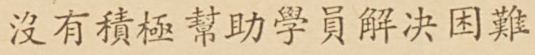沒有積極幫助學員解決困難
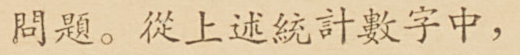問題。從上述統計數字中，
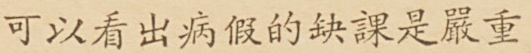可以看出病假的缺課是嚴重
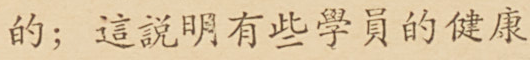的；這說明有些學員的健康
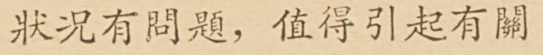狀況有問題，值得引起有關
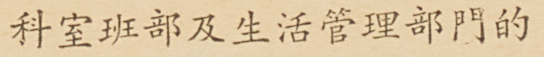科室班部及生活管理部門的
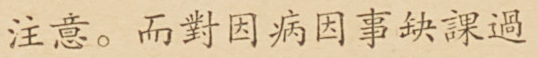注意。而對因病因事缺課過
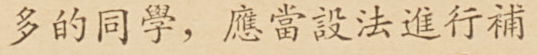多的同學，應當設法進行補
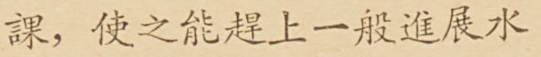課，使之能趕上一般進展水
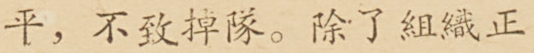平，不致掉隊。除了組織正
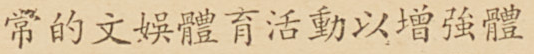常的文娛體育活動以增強體
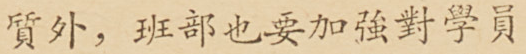質外，班部也要加強對學員
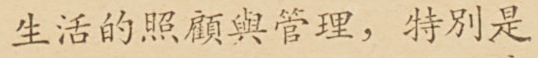生活的照顧與管理，特別是
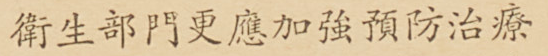衛生部門更應加強預防治療
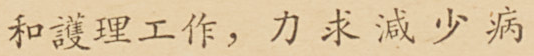和護理工作，力求減少病
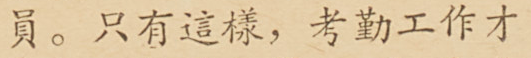員。只有這樣，考勤工作才
